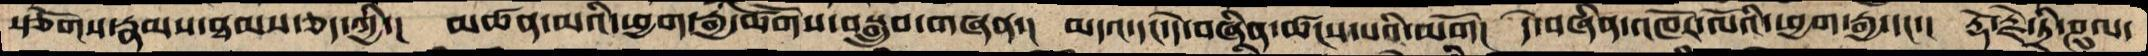སྩོགས་རྣམས་ཐམས་ཅད་ཀྱི་།  མཚན་མའི་ཕྱག་རྒྱ་ཚོགས་བསྒྲུབ་གཞན་།  མདའ་དང་དེ་བཞིན་ཚངས་པའི་མགོ།  དེ་བཞིན་འཁོར་ལོའི་ཕྱག་རྒྱ་དང་།   རྡོ་རྗེ་ཏྲི་ཤུལ་
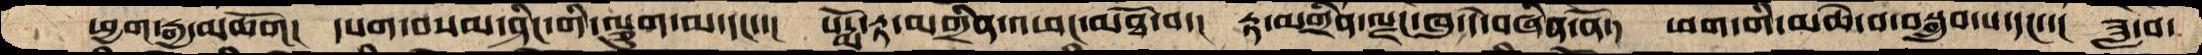ཕྱག་རྒྱ་མཆོག།  དཔག་བསམ་ཤིང་གི་ལྕུག་མ་དང་་།  པདྨོ་རྟ་མགྲིན་འཕང་མཐོ་བ་།  རྟ་མགྲིན་ལྗང་ཁུ་དེ་བཞིན་ནོ་།  ཕག་གི་མཆེ་བ་བསྒྲུབ་པ་དང་་།  ཟླ་བ་
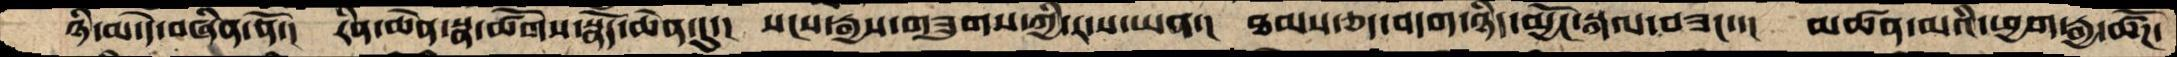ཉི་མ་དེ་བཞིན་ནོ་།  རིན་ཆེན་སྣ་ཚོགས་སྣོད་ཆེན་དུ་།   སངས་རྒྱས་གཟུགས་ཀྱི་ར་ས་ཡན་།  ཐམས་ཅད་བདག་ཉིད་མྱོང་སྐལ་བཟང་་།  མཚན་མའི་ཕྱག་རྒྱ་ཚོཌ་
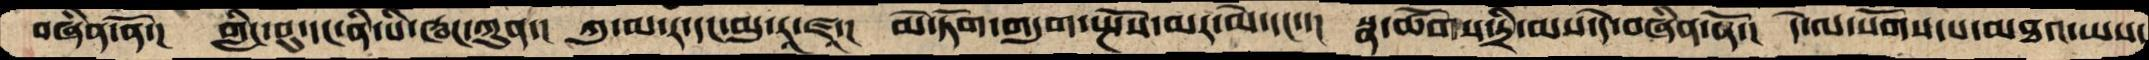བཞིན་ནོ་།  གླིང་བུ་དང་ནི་པི་ཝང་ཀུན་།  ཀུ་མ་ར་དང་མུ་རཱ་ཛཱ་།   མེ་ཏོག་གདུག་སྤོས་མར་མེ་དང་་།  སྣ་ཚོགས་དྲི་མས་དེ་བཞིན་ནོ་།  དེ་ལ་སོགས་པ་མཐའ་ཡས་
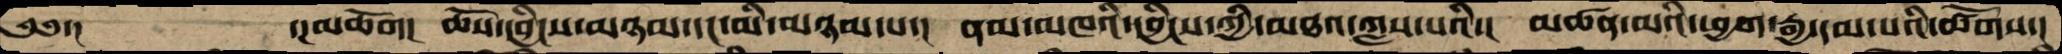༄༅་།          ་།མཆོག།   ཆོས་དབྱིངས་མཉམ་དང་མི་མཉམ་པ་།  ནམ་མཁའི་དབྱིངས་ཀྱི་མཐའ་ཀླས་པའི་།  མཚན་མའི་ཕྱག་རྒྱ་དམ་པའི་ཚོགས་།
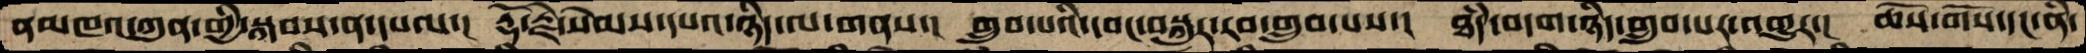ནམཁའ་ཀུན་གྱི་སྐབས་ན་དཔལ་།  རྡོ་རྗེ་སེམས་དཔའ་ཉིད་ལ་གནས་།  གྲུབ་པའི་དབང་བསྐུར་རབ་གྲུབ་པས་།  ཐཾད་བདག་ཉིད་གྲུབ་པར་འགྱུར་།  ཆོས་གོས་དང་ནི་
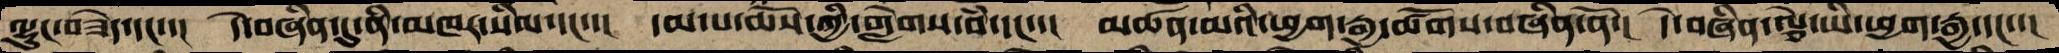ལྷུང་བཟེད་དང་་།  དེ་བཞིན་དུ་ནི་མཁར་སིལ་དང་་།  དམ་པ་ཆོས་ཀྱི་གླེགས་བཾ་དང་་།  མཚན་མའི་ཕྱག་རྒྱ་ཚོགས་བཞིན་ནོ་།   དེ་བཞིན་ལྕེ་ཡི་ཕྱག་རྒྱ་དང་་།
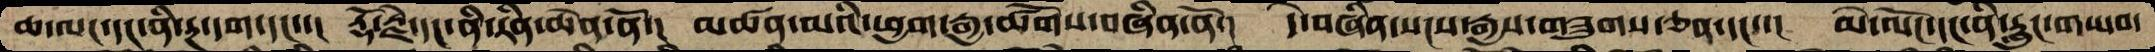ཆ་ལང་དང་ནི་རྔ་དག་དང་་།   རྡོ་རྗེ་དང་ནི་རིན་ཆེན་ནོ་།  མཚན་མའི་ཕྱག་རྒྱ་ཚོགས་བཞིན་ནོ་།  དེ་བཞིན་སངས་རྒྱས་གཟུགས་ཅན་དང་་།   མེ་ལོང་དང་ནི་རླུང་གཡབ་
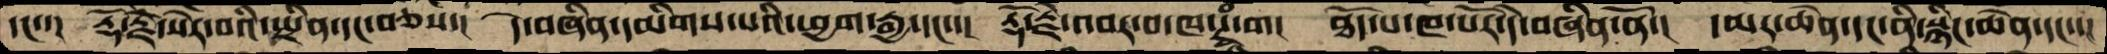དང་་།  རྡོ་རྗེ་སེར་བའི་སྤྲིན་དང་བཅས་།  དེ་བཞིན་དམིགས་པའི་ཕྱག་རྒྱ་དང་་།   རྡོ་རྗེ་འབར་བ་ཁ་ཊྭཱཾ་ག།   ཐོད་པ་ཁ་པོར་དེ་བཞིན་ནོ་།   དམར་ཆེན་དང་ནི་སྙིང་ཆེན་དང་་།
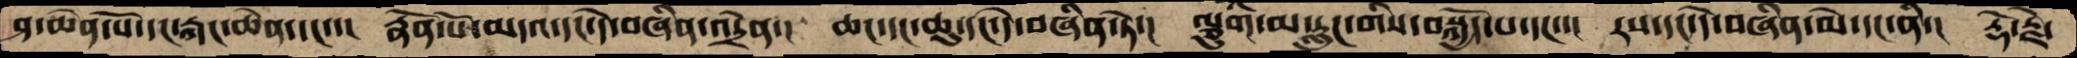ཤ་ཆེན་པོ་དང་རྐང་ཆེན་དང་་།   རྣོན་པོ་མདའ་དང་དེ་བཞིན་འདྲེན་།  ཆང་དང་ཆུ་དང་དེ་བཞིན་ཏེ་།  ལྕུག་མ་རླུང་གིས་བསྐྱོད་པ་དང་་།   རས་དང་དེ་བཞིན་མེ་དང་ནི་།  རྡོ་རྗེ་
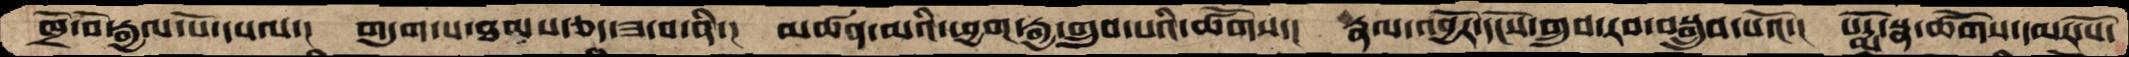ཁྲོ་བོ་རྒྱལ་པོ་དཔལ་།  གདུག་པ་ཐམས་ཅད་ཟ་བ་ནི་།   མཚན་མའི་ཕྱག་རྒྱ་གྲུབ་པའི་ཚོགས་།  རྣལ་འབྱོར་དངོས་གྲུབ་རབ་བསྒྲུབ་པའོ་།  པདྨོ་སྣ་ཚོགས་དམར་པོ་
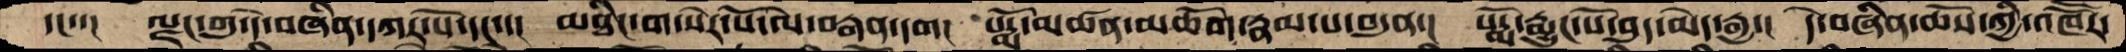དང་་།   ལྗང་གུ་དེ་བཞིན་དཀར་པོ་དང་་།  མཐིང་ག་སེར་པོ་ལེ་བརྒན་དག།  པདྨོ་མཚན་མཆོག་རྣམ་པ་བདུན་།  པདྨོ་རྨྱུང་པོ་བུད་མེད་རྒྱ་།  དེ་བཞིན་ཆོས་ཀྱི་འཁཽར་
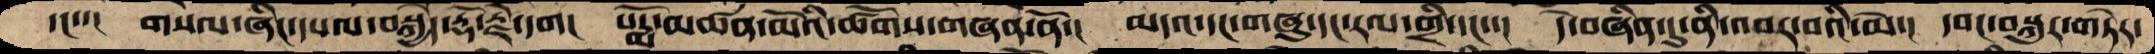དང་་།   གསལ་ཞིང་དཔལ་བསྐྱེད་རྡོ་རྗེ་དག།  པདྨོ་མཚན་མོའི་ཚོགས་གཞན་ནོ་།  མདའ་དང་གཞུ་དང་རལ་གྲི་དང་་།  དེ་བཞིན་དུ་ནི་འབར་བའི་མེ་།  དབང་བསྐུར་གཏེར་
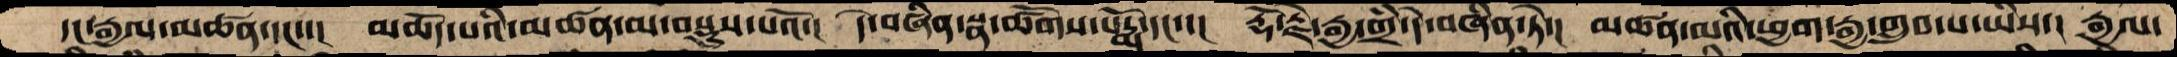དང་རྒྱལ་མཚན་དང་་།   མཆོད་པའི་མཚན་མ་བསྡུས་པའོ་།   དེ་བཞིན་སྣ་ཚོགས་པདྨོ་དང་་།  རྡོ་རྗེ་རྒྱ་གྲཾ་དེ་བཞིན་ཏེ་།  མཚན་མའི་ཕྱག་རྒྱ་གྲུབ་པ་ཡིས་།  རྒྱལ་
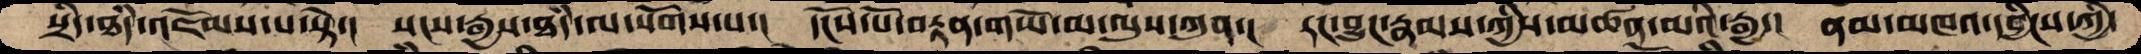སྲིད་ཐཾད་འཇོམས་པ་སྟེ་།  སངས་རྒྱས་ཐཾད་ལ་སོགས་པ་།  དངོས་པོ་བརྟན་གཡོ་མ་ལུས་ཀུན་།  རང་བྱུང་རྣམས་ཀྱིས་མཚན་མའི་རྒྱ་།  ནམ་མཁའ་དབྱིངས་ཀྱི་
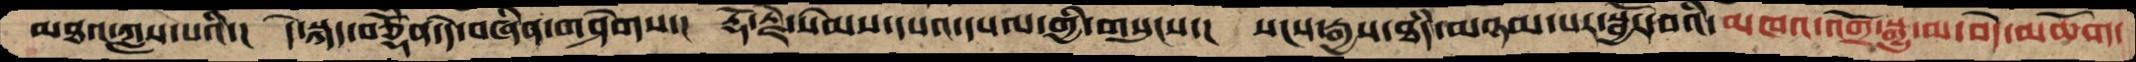མཐའ་ཀླས་པའི་།  དེ་སྐད་བཅྡོཾན་དེ་བཞིན་གཤེགས་།  རྡོ་རྗེ་སེམས་དཔའ་དཔལ་གྱི་གསུངས་།  སངས་རྒྱས་ཐཾད་མཉམ་པར་སྦྱོར་བའི་མཁའ་འགྲོ་སྒྱུ་མ་བདེ་མཆོག་
